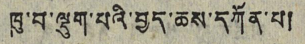ཁུ་བ་ལྡུག་པའི་བྱད་ཆས་དཀོན་པ།
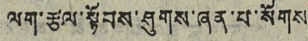ལག་རྩལ་སྟོབས་ཤུགས་ཞན་པ་སོགས་
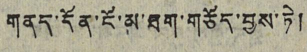གནད་དོན་ངོ་མ་ཐག་གཅོད་བྱས་ཏེ།
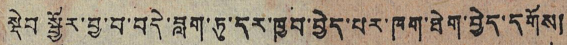སྡེབ སྦྱོར་བྱ་བ་བདེ་བླག་ཏུ་དར་ཁྱབ་བྱེད་པར་ཁག་ཐེག་བྱེད་དགོས།
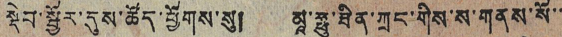སྡེབ་སྦྱོར་དུས་ཚོད་ཕྱོགས་སུ། མཱ་ཧྥུ་ཐིན་ཀྲང་གིས་ས་གནས་སོ་་
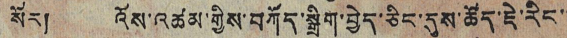སོར། འོས་འཚམ་གྱིས་བཀོད་སྒྲིག་བྱེད་ཅིང་དུས་ཚོད་ཇེ་རིང་་
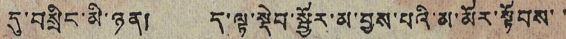དུ་བསྲིང་མི་ཉན། ད་ལྟ་སྡེབ་སྦྱོར་མ་བྱས་པའི་མ་མོར་སྟོབས་་
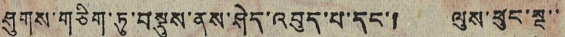ཤུགས་གཅིག་ཏུ་བསྡུས་ནས་ཤེད་འབུད་པ་དང་། ལུས་ཕུང་སྔ་་
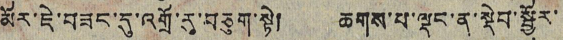མོར་ཇེ་བཟང་དུ་འགྲོ་རུ་བཅུག་སྟེ། ཆགས་པ་ལྡང་ན་སྡེབ་སྦྱོར་
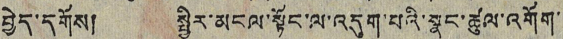བྱེད་དགོས། སྤྱིར་མངལ་སྟོང་ལ་འདུག་པའི་སྣང་ཚུལ་འགོག་
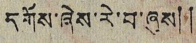དགོས་ཞེས་རེ་བ་ཞུས༎
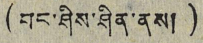(བང་ཤིས་ཤིན་ནས།)
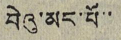བེའུ་མང་པོ་་
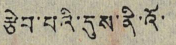རྩེབ་པའི་དུས་ནི་འོ་་
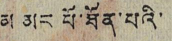མ མང པོ་ཐོན་པའི་
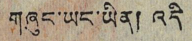གཞུང་ཡང་ཡིན། འདི
